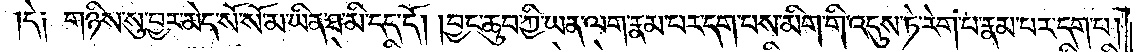དེ༑ གཉིས་སུ་བྱར་མེད་སོ་སོ་མ་ཡིན་ཐ་མི་དད་དོ། །བྱང་ཆུབ་ཀྱི་ཡན་ལག་རྣམ་པར་དག་པས་མིག་གི་འདུས་ཏེ་རེག་པ་རྣམ་པར་དག་པ།
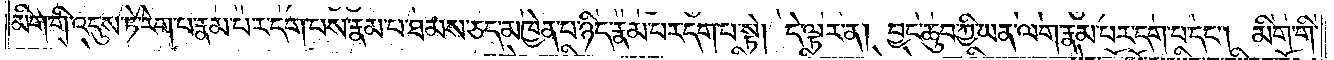མིག་གི་འདུས་ཏེ་རེག་པ་རྣམ་པར་དག་པས་རྣམ་པ་ཐམས་ཅད་མཁྱེན་པ་ཉིད་རྣམ་པར་དག་པ་སྟེ། དེ་ལྟར་ན། བྱང་ཆུབ་ཀྱི་ཡན་ལག་རྣམ་པར་དག་པ་དང༌། མིག་གི་
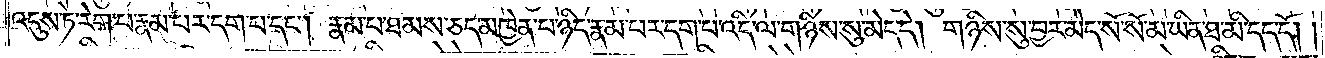འདུས་ཏེ་རེག་པ་རྣམ་པར་དག་པ་དང༌། རྣམ་པ་ཐམས་ཅད་མཁྱེན་པ་ཉིད་རྣམ་པར་དག་པ་འདི་ལ་གཉིས་སུ་མེད་དེ། གཉིས་སུ་བྱར་མེད་སོ་སོ་མ་ཡིན་ཐ་མི་དད་དོ། །
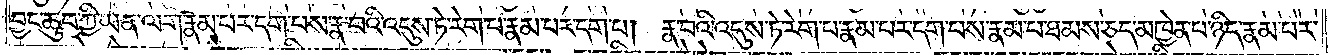བྱང་ཆུབ་ཀྱི་ཡན་ལག་རྣམ་པར་དག་པས་རྣ་བའི་འདུས་ཏེ་རེག་པ་རྣམ་པར་དག་པ། རྣ་བའི་འདུས་ཏེ་རེག་པ་རྣམ་པར་དག་པས་རྣམ་པ་ཐམས་ཅད་མཁྱེན་པ་ཉིད་རྣམ་པར་
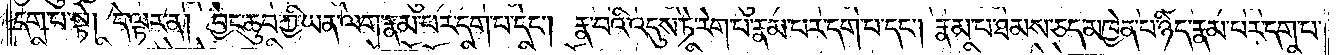དག་པ་སྟེ། དེ་ལྟར་ན། བྱང་ཆུབ་ཀྱི་ཡན་ལག་རྣམ་པར་དག་པ་དང༌། རྣ་བའི་འདུས་ཏེ་རེག་པའི་རྣམ་པར་དག་པ་དང༌། རྣམ་པ་ཐམས་ཅད་མཁྱེན་པ་ཉིད་རྣམ་པར་དག་པ་
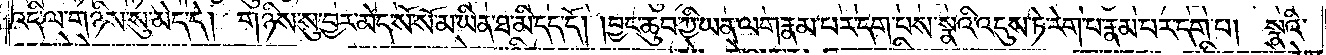འདི་ལ་གཉིས་སུ་མེད་དེ། གཉིས་སུ་བྱར་མེད་སོ་སོ་མ་ཡིན་ཐ་མི་དད་དོ། །བྱང་ཆུབ་ཀྱི་ཡན་ལག་རྣམ་པར་དག་པས་སྣའི་འདུས་ཏེ་རེག་པ་རྣམ་པར་དག་པ། སྣའི་
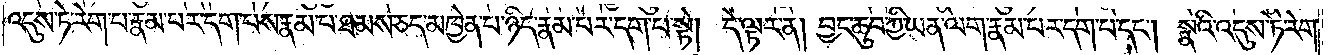འདུས་ཏེ་རེག་པ་རྣམ་པར་དག་པས་རྣམ་པ་ཐམས་ཅད་མཁྱེན་པ་ཉིད་རྣམ་པར་དག་པ་སྟེ། དེ་ལྟར་ན། བྱང་ཆུབ་ཀྱི་ཡན་ལག་རྣམ་པར་དག་པ་དང༌། སྣའི་འདུས་ཏེ་རེག་
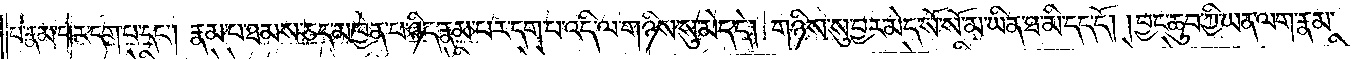པ་རྣམ་པར་དག་པ་དང༌། རྣམ་པ་ཐམས་ཅད་མཁྱེན་པ་ཉིད་རྣམ་པར་དག་པ་འདི་ལ་གཉིས་སུ་མེད་དེ། གཉིས་སུ་བྱར་མེད་སོ་སོ་མ་ཡིན་ཐ་མི་དད་དོ། །བྱང་ཆུབ་ཀྱི་ཡན་ལག་རྣམ་
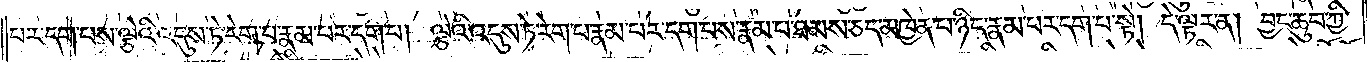པར་དག་པས་ལྕེའི་འདུས་ཏེ་རེག་པ་རྣམ་པར་དག་པ། ལྕེའི་འདུས་ཏེ་རེག་པ་རྣམ་པར་དག་པས་རྣམ་པ་ཐམས་ཅད་མཁྱེན་པ་ཉིད་རྣམ་པར་དག་པ་སྟེ། དེ་ལྟར་ན། བྱང་ཆུབ་ཀྱི་
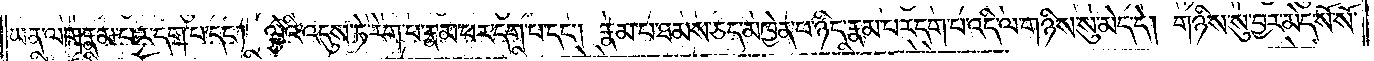ཡན་ལག་རྣམ་པར་དག་པ་དང༌། ལྕེའི་འདུས་ཏེ་རེག་པ་རྣམ་པར་དག་པ་དང༌། རྣམ་པ་ཐམས་ཅད་མཁྱེན་པ་ཉིད་རྣམ་པར་དག་པ་འདི་ལ་གཉིས་སུ་མེད་དེ། གཉིས་སུ་བྱར་མེད་སོ་སོ་
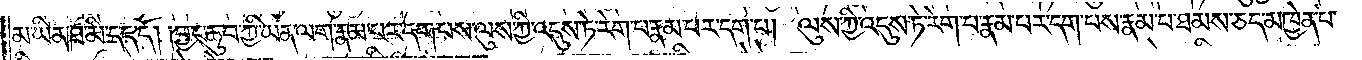མ་ཡིན་ཐ་མི་དད་དོ། །བྱང་ཆུབ་ཀྱི་ཡན་ལག་རྣམ་པར་དག་པས་ལུས་ཀྱི་འདུས་ཏེ་རེག་པ་རྣམ་པར་དག་པ། ལུས་ཀྱི་འདུས་ཏེ་རེག་པ་རྣམ་པར་དག་པས་རྣམ་པ་ཐམས་ཅད་མཁྱེན་པ་
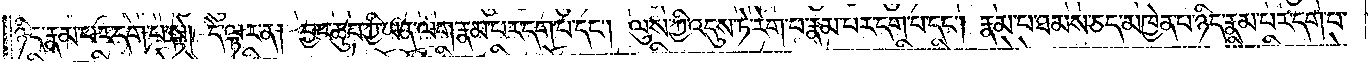ཉིད་རྣམ་པར་དག་པ་སྟེ། དེ་ལྟར་ན། བྱང་ཆུབ་ཀྱི་ཡན་ལག་རྣམ་པར་དག་པ་དང༌། ལུས་ཀྱི་འདུས་ཏེ་རེག་པ་རྣམ་པར་དག་པ་དང༌། རྣམ་པ་ཐམས་ཅད་མཁྱེན་པ་ཉིད་རྣམ་པར་དག་པ་
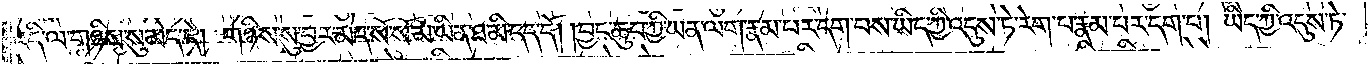འདི་ལ་གཉིས་སུ་མེད་དེ། གཉིས་སུ་བྱར་མེད་སོ་སོ་མ་ཡིན་ཐ་མི་དད་དོ། །བྱང་ཆུབ་ཀྱི་ཡན་ལག་རྣམ་པར་དག་པས་ཡིད་ཀྱི་འདུས་ཏེ་རེག་པ་རྣམ་པར་དག་པ། ཡིད་ཀྱི་འདུས་ཏེ་
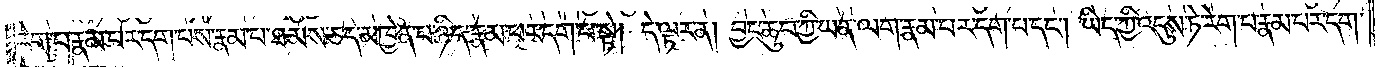རེག་པ་རྣམ་པར་དག་པས་རྣམ་པ་ཐམས་ཅད་མཁྱེན་པ་ཉིད་རྣམ་པར་དག་པ་སྟེ། དེ་ལྟར་ན། བྱང་ཆུབ་ཀྱི་ཡན་ལག་རྣམ་པར་དག་པ་དང༌། ཡིད་ཀྱི་འདུས་ཏེ་རེག་པ་རྣམ་པར་དག་
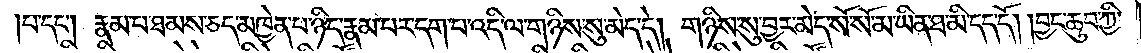པ་དང༌། རྣམ་པ་ཐམས་ཅད་མཁྱེན་པ་ཉིད་རྣམ་པར་དག་པ་འདི་ལ་གཉིས་སུ་མེད་དེ། གཉིས་སུ་བྱར་མེད་སོ་སོ་མ་ཡིན་ཐ་མི་དད་དོ། །བྱང་ཆུབ་ཀྱི་
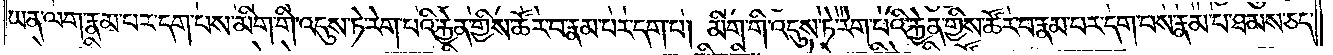ཡན་ལག་རྣམ་པར་དག་པས་མིག་གི་འདུས་ཏེ་རེག་པའི་རྐྱེན་གྱིས་ཚོར་བ་རྣམ་པར་དག་པ། མིག་གི་འདུས་ཏེ་རེག་པའི་རྐྱེན་གྱིས་ཚོར་བ་རྣམ་པར་དག་པས་རྣམ་པ་ཐམས་ཅད་
